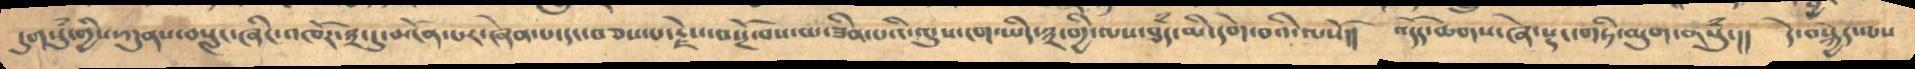དུགསུཾ་གྱིས་ཀུནས་བསླང་ཞིང་འཁོར་༣་དུ་མངོན་པར་ཞེན་པ་དང་བཅས་པ་རྗེས་བསྔོ་བོས་མ་ཟིན་པའི་ལུས་ངག་ཡིད་༣་གྱི་ལས་ཐཾད་མི་དགེ་བའི་ལསོ།། འདོད་ཆགས་ཞེ་སྡང་གཏི་མུག་གསུཾ་།། དེ་བསྐྱེད་ལས
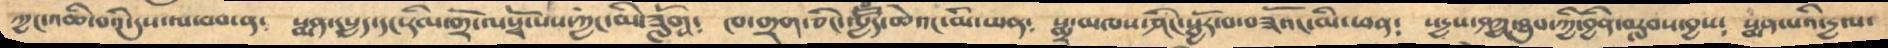ཀྱང་འཆི་བའི་དུས་ལ་བབ་ན༴ སྨན་དཔྱད་དང་རིམ་གྲོ་ལསྭོ་པས་ཀྱང་མི་ཟློག༴ ཁ་གྲག་ཅིང་ལྱོོད་ཆེའང་མི་ཕན༴ སྨྲ་མཁས་ཤཱིང་སྦྱོར་བ་བཟོའང་མི་ཕན༴ སདྱས་ཤཀྱ་ཐུབ་ཀྱི་བྱིན་བརླབས་བྱས༴ སྨན་པའི་དྱལ་
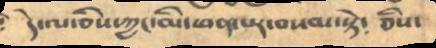དེ་ལ་ཅིས་ཀྱང་མི་ཕན་པར་བསམ་སྟེ་ ཅིས་
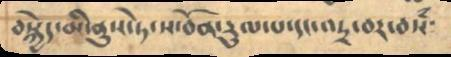བསྐྱེད་མི་ནུས་ཏེ་ས་བོན་རུལ་པ་དང་འདྲ་བར་བསཾ་
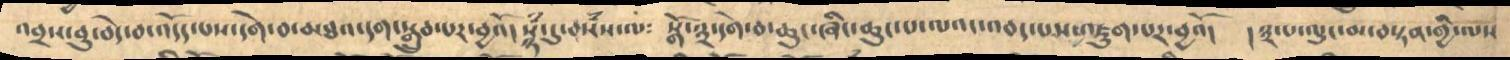འབྲས་བུ་བད་ེབ་འདོད་པས་དགེ་བ་མཐའ་དག་སྒྲུབ་པར་བྱའོ་སྙཾ་དུ་བསཾས་ལ༴ སྒོ་༣་དགེ་བ་ཆུང་ཞིང་ཆུང་པ་ལའང་འབད་པས་འཇུག་པར་བྱའོ། །༣་པ་ལུང་མ་བསྟན་གྱི་ལས་
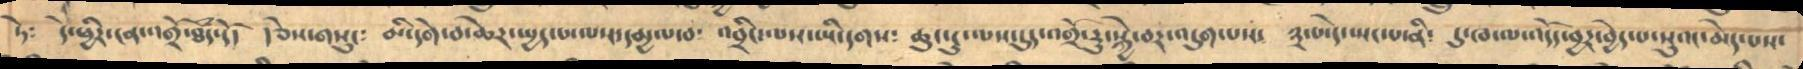ཏེ༴ དེ་ཕྱིར་ངན་འགྲོ་ཐཾད་དོ། །ཅེས་གསུང༴ མི་དགེ་བ་ཆེར་སྤྱད་པ་ལས་དམྱལ་བ་ འབྲིང་ལས་ཡི་དགས༴་ ཆུང་ངུ་ལས་དུད་འགྲོ་རུ་སྐྱེ་བར་འདུག་པས༴ ༣་པ་དེ་ཡང་པ་ནི༴ དུ་ཁ་ལ་འདོད་བྱར་བྱེད་པ་སུའང་མེད་པས་
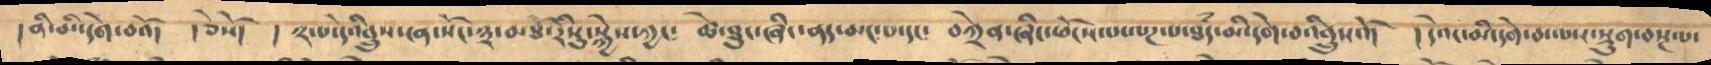།ནི་མི་དགེ་བའོ། །ཅེསོ། ། ༢པ་དེའིབྲུས་ངན་སོང་༣་མཐོ་རིསུ་སྐྱེས་ཀྱང་ ཚེ་ཐུང་ཞིང་ནད་མང་བ་དང་ བཀྲེན་ཞིང་ཕོངས་པ་ལཌ་པ་ཐཾད་མི་དགེ་བའིབྲུསའོ། །དེའང་མི་དགེ་བ་ལས་སྡུག་བསྔལ་
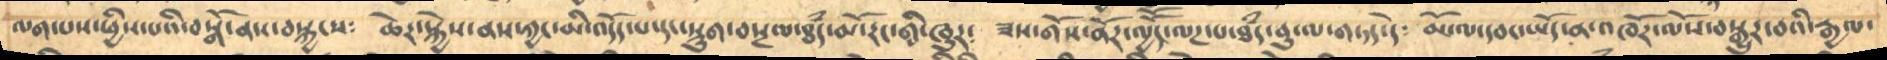ལག་པས་ཕྱིས་པའི་བསྒོ་ནས་བསྐྱངས༴ ཆེར་སྐྱེས་ནས་ཀྱང་མི་འདོད་པ་དང་སྡུག་བསྔལ་ཐཾད་མོ་རང་གི་ཁུར༴ ཟས་གོས་ནོར་ལྱོོང་ལཌ་པ་ཐཾད་བུ་ལ་གཏད་དེ༴ མོ་ལ་དབང་ཡོད་ན་འཁོར་ལོས་བསྒྱུར་བའི་རྒྱལ་
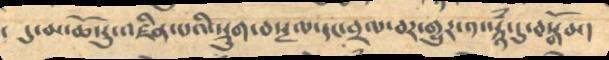་   དུ་མ་ཆོ་རུ་འཇིན་པའི་སྡུག་བསྔལ་དང་བྲལ་བར་གྱུར་ན་སྙྃ་དུ་བསྒོམ།
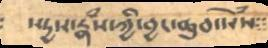དསདྱས་རྣཾས་ཀྱི་བྱང་ཆུབ་སེཾས༴༴
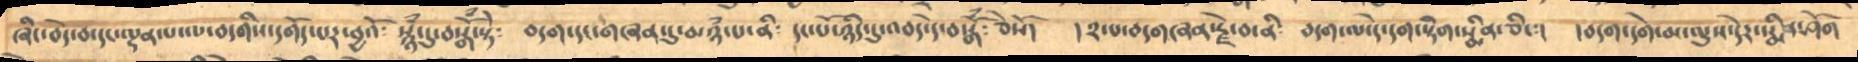ཞིང་བདེ་བ་དངལྡན་པ་ལ་བདགིས་དགོད་པར་བྱའོ༴ སྙཾ་དུ་བསྒོཾ་སྟེ༴ བདག་དང་གཞན་དུ་མཉཾ་པ་ནི༴ དང་པོ་ཉིད་དུ་འབད་དེ་བསྒོཾ་ཅེསོ།  །༢་པ་བདགཞན་རྗེ་བ་ནི༴ བདག་ལ་དེ་དག་སྡིག་སྨིན་ཅིང༴།  །བདག་དགེ་བ་ལུས་དེར་སྨིན་ཤོག
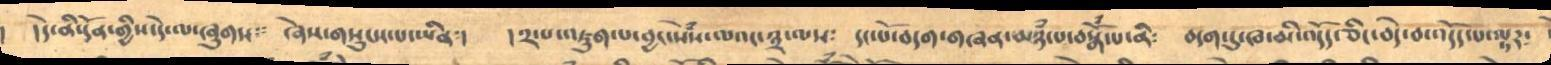།དེ་ནི་དོན་གྱིས་དེ་ལ་ཞུགས༴ ཞེས་གསུངས་པ་ཡིན། །༢་པ་འཇུག་པ་བྱང་སེཾས་ལའང་༣་ལས༴ དང་པོ་བདག་གཞན་མཉཾ་པ་བསྒོཾ་པ་ནི༴ བདག་དུ་ཁ་མི་འདོད་ཅིང་བདེ་བ་འདོད་པ་ལྟར༴
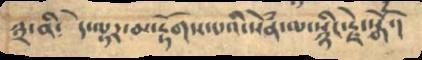༣་ནི༴ དེ་ལྟར་མ་རྟོགས་པའི་སེཾན་ལ་སྙིང་རྗེ་སྒོ་།
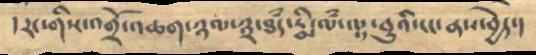།རང་གིས་འགྲོ་འཆག་ཉལ་༣་ཐཾད་རྨི་ལཾ་ལྟ་བིུ་ངང་ནས་བྱེད་།
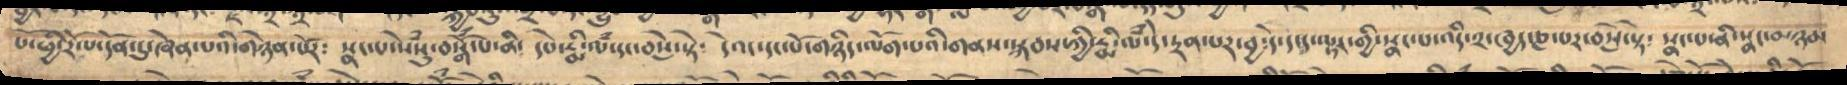པོ་ཕྱི་རོལ་པ་དོན་དུ་ཞེན་པའི་གཉེན་པོར༴ སྣང་པ་སེཾསུ་བསྒོཾ་པ་ནི་ དཔེ་རྨི་ལཾ་དང་ཅེསུ་སྟེ༴ དེའང་དང་པོ་གཉིད་ལོག་པའི་གནས་སྐབས་ཀྱི་རྨི་ལཾ་དེ་དྲན་པར་བྱ་དེ་ད་ད་ལྟར་གྱི་སྣང་པ་འདི་༢་ཁྱད་ཎ་པར་བསེུ་སྟེ༴ སྣང་པ་ནི་སྣང་མཉམ
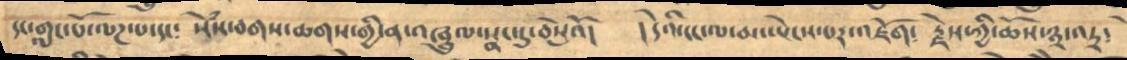དང་གླང་པོ་ལཌ་པ་དང༴ སེཾས་བགས་ཆགས་གྱི་ན་འཁྲུལ་སྣང་དུ་བསླེའོ། །དེའི་ངང་ལ་མ་ཡེངས་པར་འཇོག༴ རྗེས་ཀྱི་ཆོས་༣་འདྲ༴
